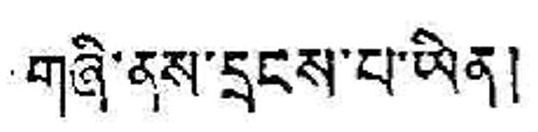གཞི་ནས་དྲངས་པ་ཡིན།
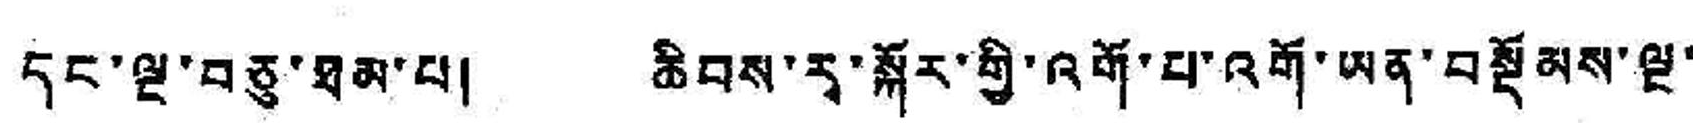དང་ལྔ་བཅུ་ཐམ་པ། ཆིབས་རྭ་སྐོར་གྱི་འགོ་པ་འགོ་ཡན་བསྡོམས་ལྔ་
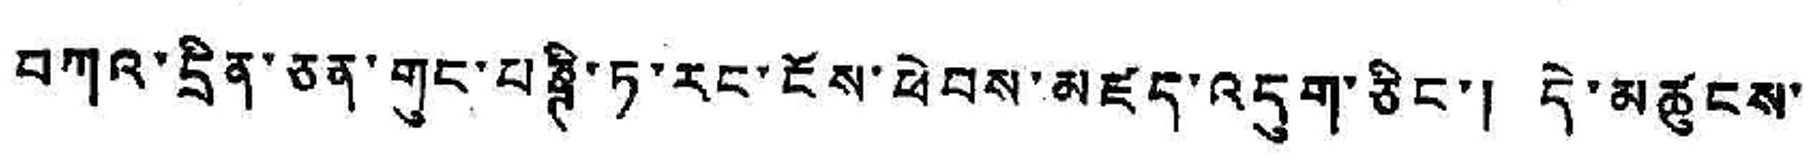བཀའ་དྲིན་ཅན་གུང་པཎྚི་ཏ་རང་ངོས་ཕེབས་མཛད་འདུག་ཅིང་། དེ་མཚུངས་
